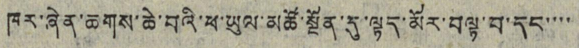ཁར་ཞེན་ཆགས་ཆེ་བའི་ཕ་ཡུལ་མཚོ་སྔོན་རུ་ལྟད་མོར་བལྟ་བ་དད་་་་་
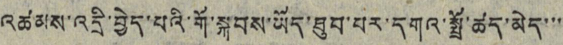འཚམས་འདྲི་བྱེད་པའི་གོ་སྐབས་ཡོད་ཐུབ་པར་དགའ་སྤྲོ་ཚད་མེད་་་
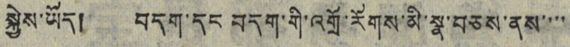སྐྱེས་ཡོད། བདག་དང བདག་གི་འགྲོ་རོགས་མི་སྣ་བཅས་ནས་་་་
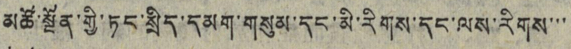མཚོ་སྔོན་གྱི་ཏང་སྲིད་དམག་གསུམ་དང་མི་རིགས་དང་ལས་རིགས་་་
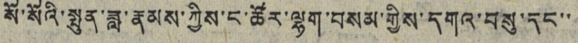སོ་སོའི་སྤུན་ཟླ་རྣམས་ཀྱིས་ང་ཚོར་ལྷག་བསམ་གྱིས་དགའ་བསུ་དང་་
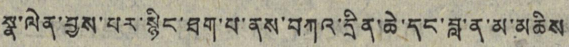སྣ་ལེན་བྱས་པར་སྙིང་ཐག་པ་ནས་བཀའ་དྲིན་ཆེ་དང་བླ་ན་མ་མཆིས
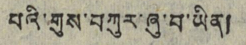པའི་གུས་བཀུར་ཞུ་བ་ཡིན།
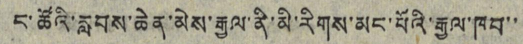ང་ཚོའི་རླབས་ཆེན་མེས་རྒྱལ་ནི་མི་རིགས་མང་པོའི་རྒྱལ་ཁབ་་
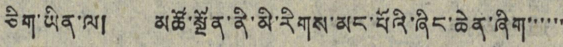ཅིག་ཡིན་ལ། མཚོ་སྔོན་ནི་མི་རིགས་མང་པོའི་ཞིང་ཆེན་ཞིག་་་་་་
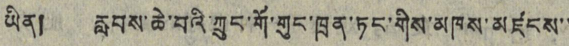ཡིན། རླབས་ཆེ་བའི་ཀྲུང་གོ་གུང་ཁྲན་ཏང་གིས་མཁས་མཛུངས་་
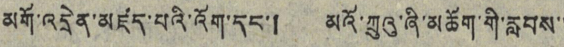མགོ་འདྲེན་མཛད་པའི་འོག་དང་། མའོ་ཀྲུའུ་ཞི་མཆོག་གི་རླབས་་
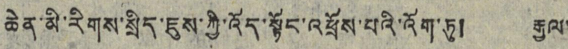ཆེན་མི་རིགས་སྲིད་ཇུས་ཀྱི་འོད་སྟོང་འཕྲོས་པའི་འོག་ཏུ། རྒྱལ་
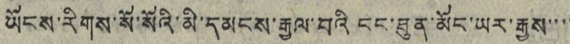ཡོངས་རིགས་སོ་སོའི་མི་དམངས་རྒྱལ་བའི ངང་ཐུན་མོང་ཡར་རྒྱས་་་་
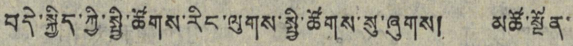བདེ་སྐྱིད་ཀྱི་སྤྱི་ཚོགས་རིང་ལུགས་སྤྱི་ཚོགས་སུ་ཞུགས། མཚོ་སྔོན་
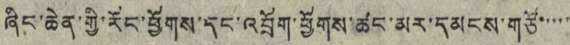ཞིང་ཆེན་གྱི་རོང་ཕྱོགས་དང་འབྲོག་ཕྱོགས་ཚང་མར་དམངས་གཙོ་་་་་་
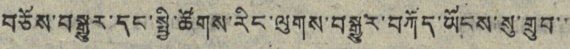བཅོས་བསྒྱུར་དང་སྤྱི་ཚོགས་རིང་ལུགས་བསྒྱུར་བཀོད་ཡོངས་སུ་གྲུབ་་
